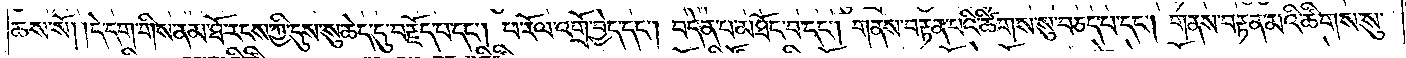ཆས་སོ། །དེ་དག་གིས་ནམ་ཐོ་རངས་ཀྱི་དུས་སུ་ཆེད་དུ་བརྗོད་པ་དང༌། ཕ་རོལ་འགྲོ་བྱེད་དང༌། བདེན་པ་མཐོང་བ་དང༌། གནས་བརྟན་པའི་ཚིགས་སུ་བཅད་པ་དང༌། གནས་བརྟན་མའི་ཚིགས་སུ་
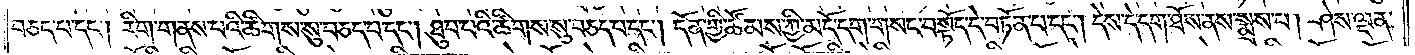བཅད་པ་དང༌། རིག་གནས་པའི་ཚིགས་སུ་བཅད་པ་དང༌། ཐུབ་པའི་ཚིགས་སུ་བཅད་པ་དང༌། དོན་གྱི་ཚོམས་ཀྱི་མདོ་དག་གསང་བསྟོད་དེ་བཏོན་པ་དང༌། དེས་དེ་དག་ཐོས་ནས་སྨྲས་པ། ཤེས་ལྡན་
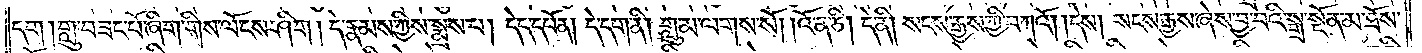དག །གླུ་བཟང་པོ་ཞིག་གིས་ལོངས་ཤིག །དེ་རྣམས་ཀྱིས་སྨྲས་པ། དེད་དཔོན། དེ་དག་ནི། གླུ་མ་ལགས་སོ། །འོ་ན་ཅི། དེ་ནི། སངས་རྒྱས་ཀྱི་བཀའོ། །དེས། སངས་རྒྱས་ཞེས་བྱ་བའི་སྒྲ་སྔོན་མ་ཐོས་
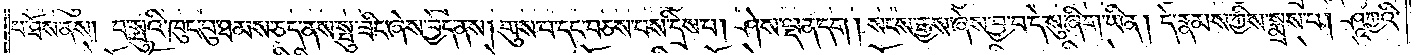པ་ཐོས་ནས། བ་སྤུའི་ཁུང་བུ་ཐམས་ཅད་ནས་སྤུ་ཟིང་ཞེས་བྱེད་ནས། གུས་པ་དང་བཅས་པས་དྲིས་པ། ཤེས་ལྡན་དག །སངས་རྒྱས་ཞེས་བྱ་བ་དེ་སུ་ཞིག་ཡིན། དེ་རྣམས་ཀྱིས་སྨྲས་པ། ཤཱཀྱའི་
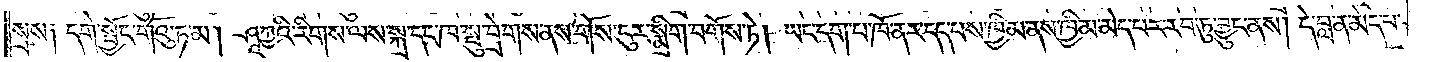སྲས། དགེ་སྦྱོང་གོའུ་ཏ་མ། ཤཱཀྱའི་རིགས་ལས་སྐྲ་དང་ཁ་སྤུ་བྲེགས་ནས་གོས་དུར་སྨྲིག་བགོས་ཏེ། ཡང་དག་པ་ཁོ་ནར་དད་པས་ཁྱིམ་ནས་ཁྱིམ་མེད་པར་རབ་ཏུ་བྱུང་ནས། དེ་བླ་ན་མེད་པ་
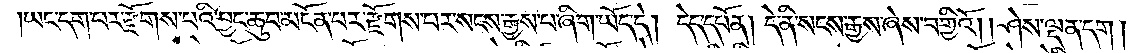ཡང་དག་པར་རྫོགས་པའི་བྱང་ཆུབ་མངོན་པར་རྫོགས་པར་སངས་རྒྱས་པ་ཞིག་ཡོད་དེ། དེད་དཔོན། དེ་ནི་སངས་རྒྱས་ཞེས་བགྱིའོ། །ཤེས་ལྡན་དག།
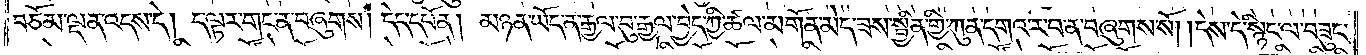བཅོམ་ལྡན་འདས་དེ། ད་ལྟར་གང་ན་བཞུགས། དེད་དཔོན། །མཉན་ཡོད་ན་རྒྱལ་བུ་རྒྱལ་བྱེད་ཀྱི་ཚལ་མགོན་མེད་ཟས་སྦྱིན་གྱི་ཀུན་དགའ་ར་བ་ན་བཞུགས་སོ། །དེས་དེ་སྙིང་ལ་བཟུང་
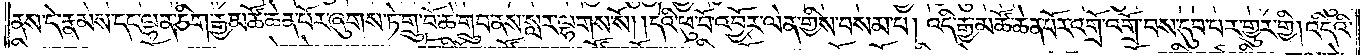ནས་དེ་རྣམས་དང་ལྷན་ཅིག་རྒྱ་མཚོ་ཆེན་པོར་ཞུགས་ཏེ་གྲུ་བོ་ཆེ་གྲུབ་ནས་སླར་ལྷགས་སོ། །དེའི་ཕུ་བོ་འབྱོར་ལེན་གྱིས་བསམ་པ། འདི་རྒྱ་མཚོ་ཆེན་པོར་འགྲོ་འགྲོ་བས་དུབ་བར་གྱུར་གྱི། འདིའི་
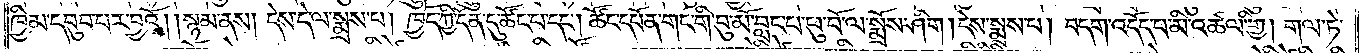ཁྱིམ་དབུབ་པར་བྱའོ། །སྙམ་ནས། དེས་དེ་ལ་སྨྲས་པ། ཁྱོད་ཀྱི་དོན་དུ་ཚོང་པ་དང༌། ཚོང་དཔོན་གང་གི་བུ་མོ་བླང་པ་ཕུ་བོ་ལ་སྨྲོས་ཤིག །དེས་སྨྲས་པ། བདག་འདོད་པ་མི་འཚལ་གྱི། གལ་ཏེ་
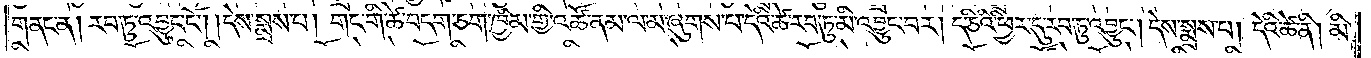གནང་ན། རབ་ཏུ་འབྱུང་ངོ༌། །དེས་སྨྲས་པ། གང་གི་ཚེ་བདག་ཅག་ཁྱིམ་གྱི་འཚོ་ནམ་ལ་མ་ཞུགས་པ་དེའི་ཚེ་རབ་ཏུ་མི་འབྱུང་བར། ད་ཅིའི་ཕྱིར་དུ་རབ་ཏུ་འབྱུང༌། དེས་སྨྲས་པ། དེའི་ཚེ་ནི། མི་
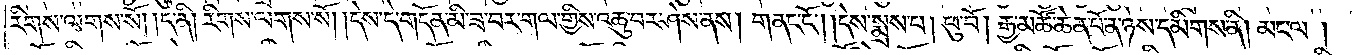རིགས་ལགས་སོ། །ད་ནི། རིགས་ལགས་སོ། །དེས་དེ་གདོན་མི་ཟ་བར་གལ་གྱིས་འཆུ་བར་ཤེས་ནས། གནང་ངོ༌། །དེས་སྨྲས་པ། ཕུ་བོ། །རྒྱ་མཚོ་ཆེན་པོ་ན་ཉེས་དམིགས་ནི། མང་ལ།
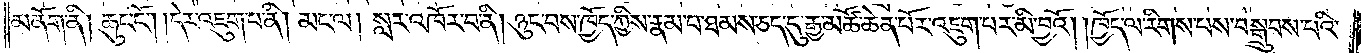མནོག་ནི། ཆུང་ངོ༌། །དེར་འཇུག་པ་ནི། མང་ལ། སླར་འཁོར་བ་ནི། ཉུང་བས་ཁྱོད་ཀྱིས་རྣམ་པ་ཐམས་ཅད་དུ་རྒྱ་མཚོ་ཆེན་པོར་འཇུག་པར་མི་བྱའོ། །ཁྱོད་ལ་རིགས་པས་བསྒྲུབས་པའི་
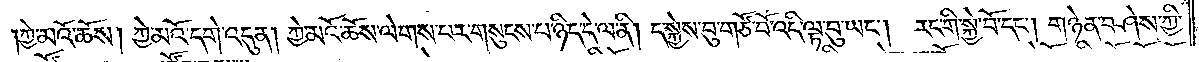ཀྱེ་མའོ་ཆོས། ཀྱེ་མའོ་དགེ་འདུན། ཀྱེ་མའོ་ཆོས་ལེགས་པར་གསུངས་པ་ཉིད་དེ་ལ་ནི། ད་སྐྱེས་བུ་གཙོ་བོ་འདི་ལྟ་བུ་ཡང༌།  རང་གི་སྐྱེ་བོ་དང༌། གཉེན་བཤེས་ཀྱི་
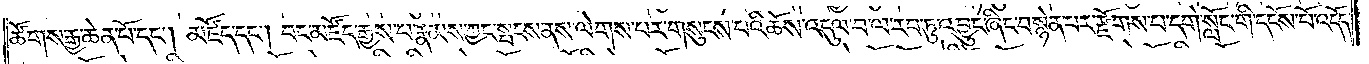ཚོགས་རྒྱ་ཆེན་པོ་དང༌། མཛོད་དང༌། བང་མཛོད་རྒྱས་པ་རྣམས་ཀྱང་སྤངས་ནས་ལེགས་པར་གསུངས་པའི་ཆོས་འདུལ་བ་ལ་རབ་ཏུ་འབྱུང་ཞིང་བསྙེན་པར་རྫོགས་པ་དགེ་སློང་གི་དངོས་པོ་འདོད་
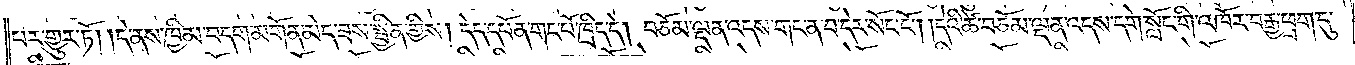པར་གྱུར་ཏོ། །དེ་ནས་ཁྱིམ་བདག་མགོན་མེད་ཟས་སྦྱིན་གྱིས། དེད་དཔོན་གང་པོ་ཁྲིད་དེ། བཅོམ་ལྡན་འདས་གང་ན་པ་དེར་སོང་ངོ༌། །དེའི་ཚེ་བཅོམ་ལྡན་འདས་དགེ་སློང་གི་འཁོར་བརྒྱ་ཕྲག་དུ་
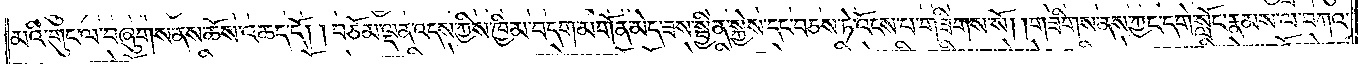མའི་གུང་ལ་བཞུགས་ནས་ཆོས་འཆད་དོ། །བཅོམ་ལྡན་འདས་ཀྱིས་ཁྱིམ་བདག་མགོན་མེད་ཟས་སྦྱིན་སྐྱེས་དང་བཅས་ཏེ་འོངས་པ་གཟིགས་སོ། །གཟིགས་ནས་ཀྱང་དགེ་སློང་རྣམས་ལ་བཀའ་
